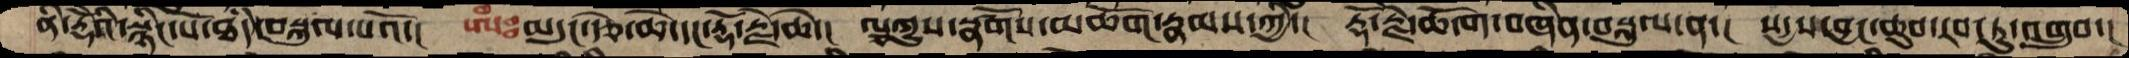ནི་རྡོེའི་སྙིང་པོ་ཐདཾ་བསྐུལ་པའོ་།  ཨཾཿམདུང་རྩེ་ཆེ་དང་རྡོ་རྗེ་ཆེ་།  ལྕཀྱུས་སྣཚོགས་མཆོག་རྣམས་ཀྱི་།  རྡོ་རྗེ་ཆོ་ག་བཞིན་བསྐུལ་ན་།  སདྱས་བྱང་ཆུབ་རབ་ཏུ་འགྲུབ་
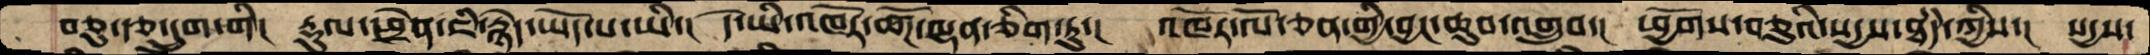བཅུ་རྩ་དྲུག་གི། རྡུལ་ཕྲེན་ཇི་རྙེད་ཡོད་པ་ཡི་།  དེ་ཡི་འཁོར་ཚོཌ་ལྷན་ཅིག་ཏུ་།  འཁོར་ལོ་ཅན་གྱི་བྱང་ཆུབ་འགྲུབ་།  ཕྱོགས་བཅུའི་སདྱས་ཐདཾ་ཀྱིས་།  སདྱས་
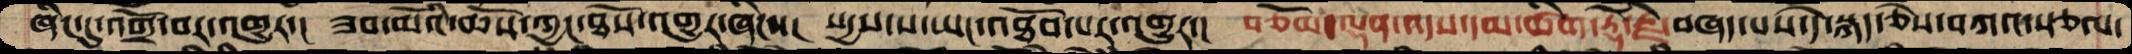ཞིང་དུ་འགྲོ་བར་འགྱུར་།  ཟབ་མོའི་ཆོས་ཀྱང་ཐོས་འགྱུར་ཞིང་་།  སདྱས་ས་ཡང་འཐོབ་པར་འགྱུར་།  བཅོམ་ལྡན་འདས་དམ་ཚིག་རྡོ་རྗེ་བཞད་པས་དེ་སྐད་ཅེས་བཀའ་སྩལ་
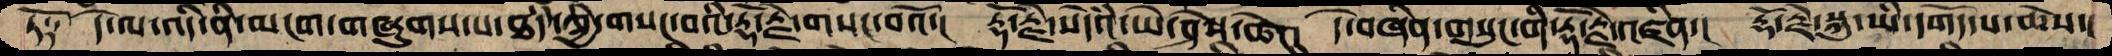ཏོ༑   དེ་ལ་འདི་ནི་མངག་གཞུགས་པ་ཐདཾ་ཀྱི་གསང་བའི་རྡོ་རྗེ་གསང་བའོ་།  རྡོ་རྗེ་སེདཾའ་ཡེ་ཤེས་ཆེ་།  དེ་བཞིན་གསུང་གི་རྡོ་རྗེ་འཛིན་།  རྡོ་རྗེ་སྐུ་ཡི་དགོད་པ་ཆེས་།
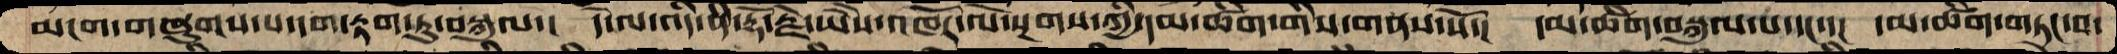མངག་གཞུགས་པ་དག་རྟག་ཏུ་བསྐུལ་།  དེ་ལ་འདི་ནི་རྡོ་རྗེ་ཡཻས་འཁོར་ལོ་སྔགས་ཀྱི་དམ་ཚིག་གིས་གནས་སོ་།  དམ་ཚིག་བསྐུལ་པ་དང་་།  དམ་ཚིག་གཏང་བ་
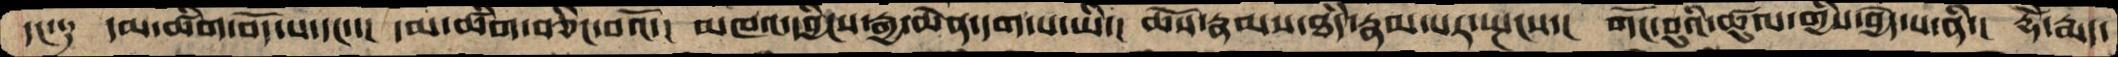དང་༑  དམ་ཚིག་བདོ་པ་དང་་།  དམ་ཚིག་བཅིང་བའོ་།  མཁའ་དབྱིངས་རྒྱ་ཆེན་དག་པ་ཡི་།  ཆོས་རྣམས་ཐདཾ་རྣམ་པར་སྤངས་།  གོང་བུའི་ཚུལ་གྱིས་བྱེད་པ་ནི་།  རྡོེ་རྨད་
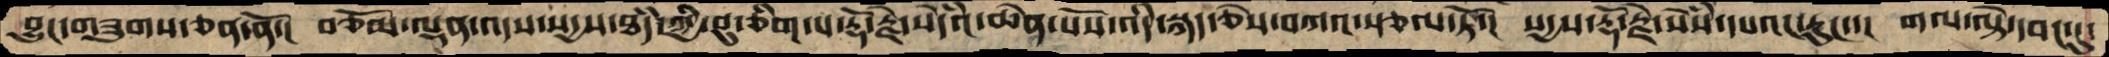བྱུང་གཟུགས་ཅན་ནོ་།  བཅོམ་ལྡན་འདས་སདྱས་ཐདཾ་ཀྱི་བུ་ཅིག་པ་རྡོ་རྗེ་སེདཾའ་ཆེན་པོས་འདི་སྐད་ཅེས་བཀའ་སྩལ་ཏོ་།  སདྱས་རྡོ་རྗེ་སེཾས་དཔའ་རུང་་།  གལ་ལྟེ་དབང་ངུ་
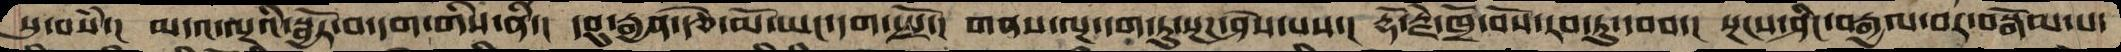སུ་བསཾ་།  མདའ་ལྔའི་སྦྱོར་བ་དག་གིས་ནི་།   དབུ་རྒྱན་རྩེ་མོ་ཡང་དག་སྤྲོ་།  གནས་ལྔ་དག་ཏུ་སྔཌ་ཤེས་པས་།  རྡོ་རྗེ་ཁྲོ་བོས་རབ་ཏུ་དབབ་།  སྔངས་ཤིང་བརྒྱལ་བར་བསྒོམ་པ་
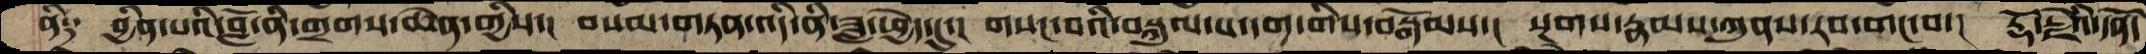ནོ༑   བྱིན་པའི་བློ་ནི་གྲགས་ཆེན་གྱིས་།  བསམ་གཏན་འདི་ནི་ཟླ་ཕྱེད་དུ་།  གསང་བའི་བསྐུལ་པ་དག་གིས་བསྒོམས་།  སྔགས་རྣམས་ཀུནས་རབ་གང་བ་།  རྡོ་རྗེའི་དོན་
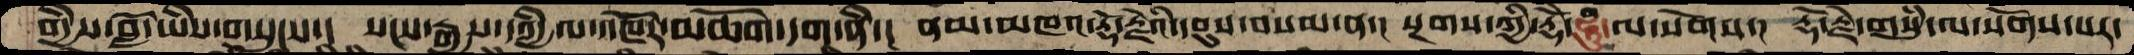གྱིས་བློ་ཡིས་གསུངས་།  སངས་རྒྱས་དཀྱིལ་འཁོར་མཆོག་དག་ནི་།  ནམ་མཁའ་རྡོ་རྗེའི་དབུས་བསམ་ན་།  སྔགས་ཀྱི་རྡོེ་ཧཱུཾ་ལ་སོགས་།  རྡོ་རྗེ་གསུཾ་ལ་སོགས་པར་
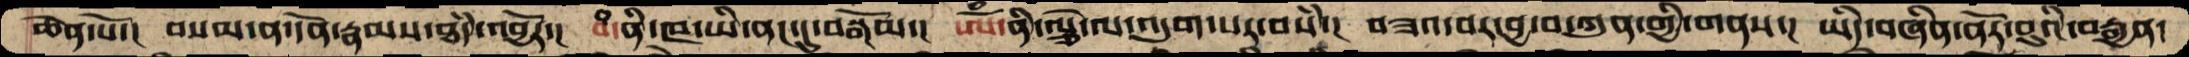ཆེན་པོ་།  བསམ་ན་དོན་རྣམས་ཐདཾ་འབྱོར་།  བཾ་ནི་ཁ་ཡི་ནང་དུ་བསྒོམ་།  ཨོཾ་ནི་ལྕེ་ལ་འདུག་པར་བསཾ་།  བཟའ་བར་བྱ་བ་ཀུན་གྱི་གནས་།  ཡིད་བཞིན་ནོར་བུའི་བརྒྱན་
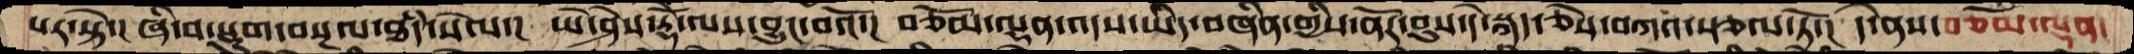པར་སྟེ་།  ཞི་བ་སྡུག་བསྔལ་ཐདཾ་སེལ་།  ཡེ་ཤེས་རྡོེ་ལས་བྱུང་བའོ་།  བཅོམ་ལྡན་འདས་ཡིད་བཞིན་གྱིས་ནོར་བུས་དེ་སྐད་ཅེས་བཀའ་སྩལ་ཏོ་།  དེ་ནས་བཅོམ་ལྡན་
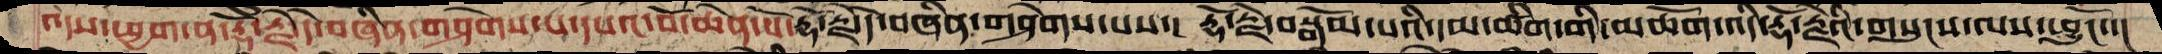འདས་ཕྱག་ན་རྡོ་རྗེ་དེ་བཞིན་གཤེགས་པ་དཔའ་བོ་ཆེན་པོ་རྡོ་རྗེ་དེ་བཞིན་གཤེགས་པས་།  རྡོ་རྗེ་བསྒོམ་པའི་དམ་ཚིག་གི་མཆོག་འདི་རྡོ་རྗེའི་གསུངས་ལས་ཕྱུངོ་་།
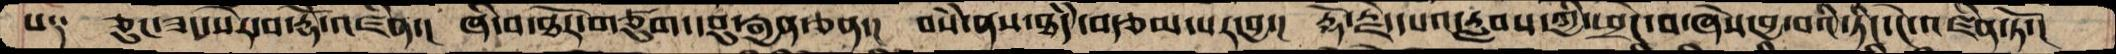པ༑  ཅུང་ཟད་སེར་བ་རྡོེ་འཛིན་།  ཞི་བ་ཐོར་གཙུག་དབུ་རྒྱན་ཅན་།  བསཾ་ནས་ཐདཾ་བརྩམ་པར་བྱ་།  རྡོ་རྗེ་དཔའ་རླབས་ཀྱི་ཕྲེང་བ་ཞེས་བྱ་བའི་ཏིང་ངེ་འཛིན་ཏོ་།
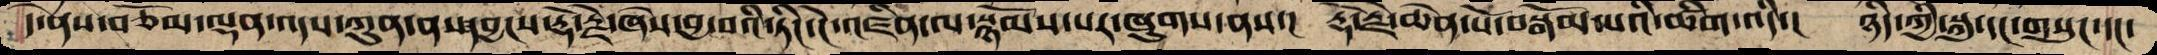དེ་ནས་བཅོམ་ལྡན་འདས་ཀུན་ནསདབྱངས་རྡོ་རྗེ་ཞེས་བྱ་བའི་ཏིང་ངེ་འཛིན་ལ་སྙོམས་པར་ཞུགས་ནས་།  རྡོ་རྗེ་ཆེན་པོ་བསྒོམ་པའི་ཚིག་འདི་།  ཉིད་ཀྱི་སྐུ་དང་གསུང་དང་
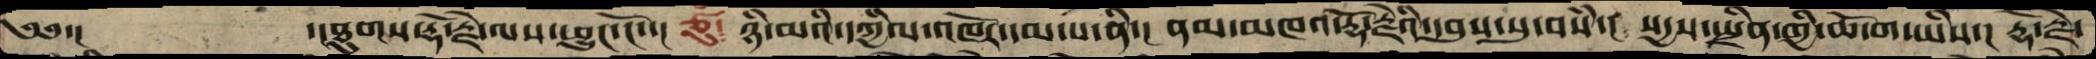༄༅་།     ་།ཐུགས་རྡོ་རྗེ་ལས་ཕྱུང་ངོ་་།  ཙུ༴ ཉི་མའི་དཀྱིལ་འཁོར་དམ་པ་ནི་།  ནམ་མཁའ་རྡོ་རྗེའི་དབུས་སུ་བསཾ་།  སདྱས་སྤྲིན་གྱི་ཆོ་ག་ཡིས་།  རྡོ་རྗེ་
